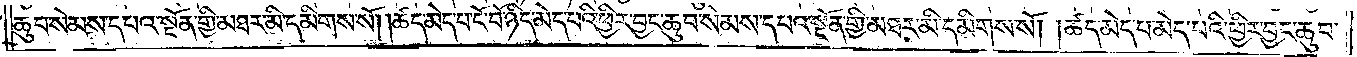ཆུབ་སེམས་དཔའ་སྔོན་གྱི་མཐར་མི་དམིགས་སོ། །ཚད་མེད་པ་ངོ་བོ་ཉིད་མེད་པའི་ཕྱིར་བྱང་ཆུབ་སེམས་དཔའ་སྔོན་གྱི་མཐར་མི་དམིགས་སོ། །ཚད་མེད་པ་མེད་པའི་ཕྱིར་བྱང་ཆུབ་
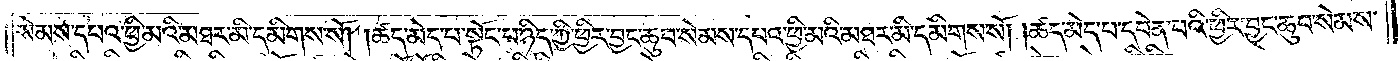སེམས་དཔའ་ཕྱི་མའི་མཐར་མི་དམིགས་སོ། །ཚད་མེད་པ་སྟོང་པ་ཉིད་ཀྱི་ཕྱིར་བྱང་ཆུབ་སེམས་དཔའ་ཕྱི་མའི་མཐར་མི་དམིགས་སོ། །ཚད་མེད་པ་དབེན་པའི་ཕྱིར་བྱང་ཆུབ་སེམས་
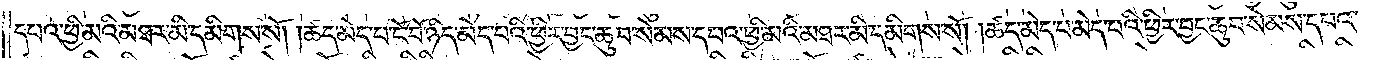དཔའ་ཕྱི་མའི་མཐར་མི་དམིགས་སོ། །ཚད་མེད་པ་ངོ་བོ་ཉིད་མེད་པའི་ཕྱིར་བྱང་ཆུབ་སེམས་དཔའ་ཕྱི་མའི་མཐར་མི་དམིགས་སོ། །ཚད་མེད་པ་མེད་པའི་ཕྱིར་བྱང་ཆུབ་སེམས་དཔའ་
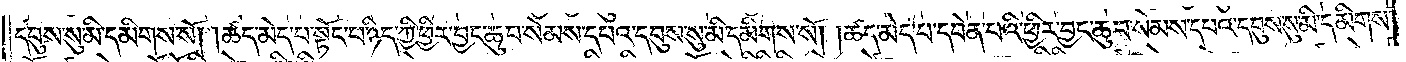དབུས་སུ་མི་དམིགས་སོ། །ཚད་མེད་པ་སྟོང་པ་ཉིད་ཀྱི་ཕྱིར་བྱང་ཆུབ་སེམས་དཔའ་དབུས་སུ་མི་དམིགས་སོ། །ཚད་མེད་པ་དབེན་པའི་ཕྱིར་བྱང་ཆུབ་སེམས་དཔའ་དབུས་སུ་མི་དམིགས་
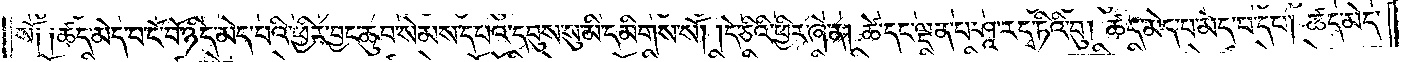སོ༑ ༑ཚད་མེད་པ་ངོ་བོ་ཉིད་མེད་པའི་ཕྱིར་བྱང་ཆུབ་སེམས་དཔའ་དབུས་སུ་མི་དམིགས་སོ། དེ་ཅིའི་ཕྱིར་ཞེ་ན། ཚེ་དང་ལྡན་པ་ཤཱ་རདྭ་ཏིའི་བུ། ཚད་མེད་པ་མེད་པ་དང༌། ཚད་མེད་
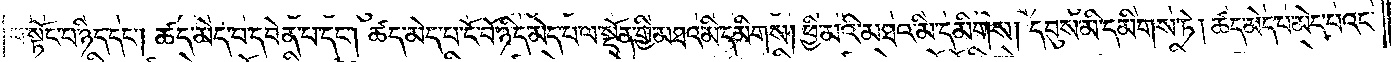པ་སྟོང་པ་ཉིད་དང༌། ཚད་མེད་པ་དབེན་པ་དང༌། ཚད་མེད་པ་ངོ་བོ་ཉིད་མེད་པ་ལ་སྔོན་གྱི་མཐའ་མི་དམིགས། ཕྱི་མའི་མཐའ་མི་དམིགས། དབུས་མི་དམིགས་ཏེ། ཚད་མེད་པ་མེད་པའང་
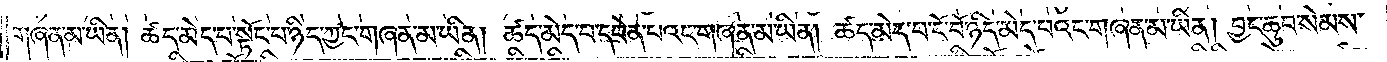གཞན་མ་ཡིན། ཚད་མེད་པ་སྟོང་པ་ཉིད་ཀྱང་གཞན་མ་ཡིན། ཚད་མེད་པ་དབེན་པའང་གཞན་མ་ཡིན། ཚད་མེད་པ་ངོ་བོ་ཉིད་མེད་པའང་གཞན་པ་ཡིན། བྱང་ཆུབ་སེམས་
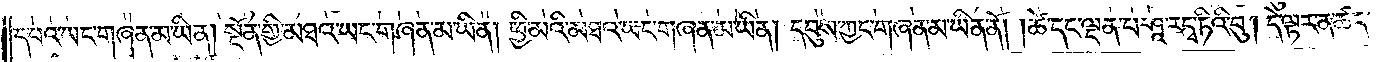དཔའ་ཡང་གཞན་མ་ཡིན། སྔོན་གྱི་མཐའ་ཡང་གཞན་མ་ཡིན། ཕྱི་མའི་མཐའ་ཡང་གཞན་མ་ཡིན། དབུས་ཀྱང་གཞན་མ་ཡིན་ནོ། །ཚེ་དང་ལྡན་པ་ཤཱ་རདྭ་ཏིའི་བུ། དེ་ལྟར་ན་ཚད་
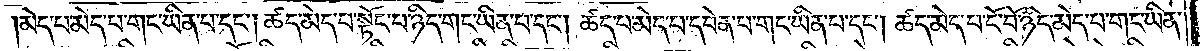མེད་པ་མེད་པ་གང་ཡིན་པ་དང༌། ཚད་མེད་པ་སྟོང་པ་ཉིད་གང་ཡིན་པ་དང༌། ཚད་མེད་པ་དབེན་པ་གང་ཡིན་པ་དང༌། ཚད་མེད་པ་ངོ་བོ་ཉིད་མེད་པ་གང་ཡིན་
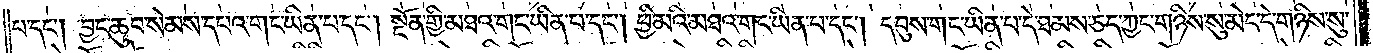པ་དང༌། བྱང་ཆུབ་སེམས་དཔའ་གང་ཡིན་པ་དང༌། སྔོན་གྱི་མཐའ་གང་ཡིན་པ་དང༌། ཕྱི་མའི་མཐའ་གང་ཡིན་པ་དང༌། དབུས་གང་ཡིན་པ་དེ་ཐམས་ཅད་ཀྱང་གཉིས་སུ་མེད་དེ་གཉིས་སུ་
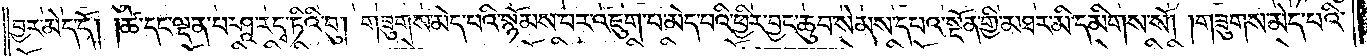བྱར་མེད་དོ། །ཚེ་དང་ལྡན་པ་ཤཱ་རདྭ་ཏིའི་བུ། གཟུགས་མེད་པའི་སྙོམས་པར་འཇུག་པ་མེད་པའི་ཕྱིར་བྱང་ཆུབ་སེམས་དཔའ་སྔོན་གྱི་མཐར་མི་དམིགས་སོ། །གཟུགས་མེད་པའི་
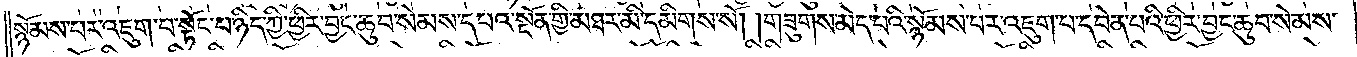སྙོམས་པར་འཇུག་པ་སྟོང་པ་ཉིད་ཀྱི་ཕྱིར་བྱང་ཆུབ་སེམས་དཔའ་སྔོན་གྱི་མཐར་མི་དམིགས་སོ། །གཟུགས་མེད་པའི་སྙོམས་པར་འཇུག་པ་དབེན་པའི་ཕྱིར་བྱང་ཆུབ་སེམས་
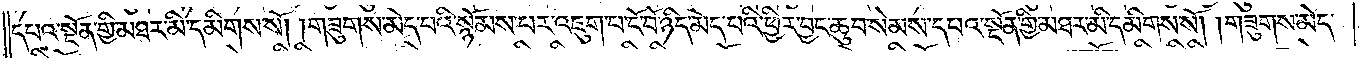དཔའ་སྔོན་གྱི་མཐར་མི་དམིགས་སོ། །གཟུགས་མེད་པའི་སྙོམས་པར་འཇུག་པ་ངོ་བོ་ཉིད་མེད་པའི་ཕྱིར་བྱང་ཆུབ་སེམས་དཔའ་སྔོན་གྱི་མཐར་མི་དམིགས་སོ། །གཟུགས་མེད་
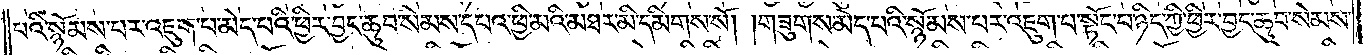པའི་སྙོམས་པར་འཇུག་པ་མེད་པའི་ཕྱིར་བྱང་ཆུབ་སེམས་དཔའ་ཕྱི་མའི་མཐར་མི་དམིགས་སོ། །གཟུགས་མེད་པའི་སྙོམས་པར་འཇུག་པ་སྟོང་པ་ཉིད་ཀྱི་ཕྱིར་བྱང་ཆུབ་སེམས་
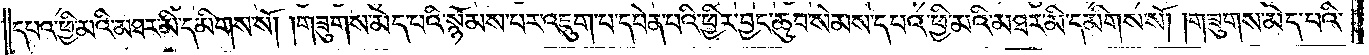དཔའ་ཕྱི་མའི་མཐར་མི་དམིགས་སོ། །གཟུགས་མེད་པའི་སྙོམས་པར་འཇུག་པ་དབེན་པའི་ཕྱིར་བྱང་ཆུབ་སེམས་དཔའ་ཕྱི་མའི་མཐར་མི་དམིགས་སོ། །གཟུགས་མེད་པའི་
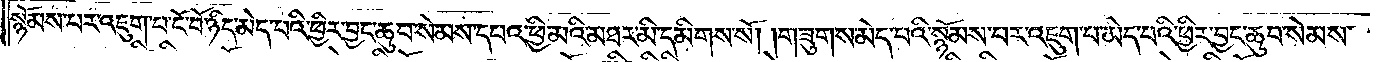སྙོམས་པར་འཇུག་པ་ངོ་བོ་ཉིད་མེད་པའི་ཕྱིར་བྱང་ཆུབ་སེམས་དཔའ་ཕྱི་མའི་མཐར་མི་དམིགས་སོ། །གཟུགས་མེད་པའི་སྙོམས་པར་འཇུག་པ་མེད་པའི་ཕྱིར་བྱང་ཆུབ་སེམས་
